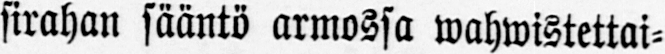sirahan sääntö armossa wahwistettai-
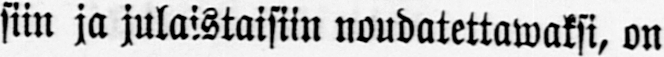siin ja julaistaisiin noudatettawaksi, on
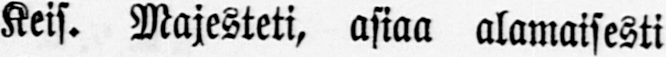Keis. Majesteti, asiaa alamaisesti
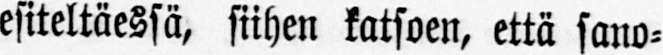esiteltäessä, siihen katsoen, että sano-
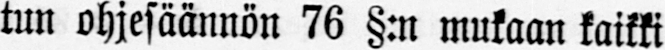tun ohjesäännön 76 §:n mukaan kaikki
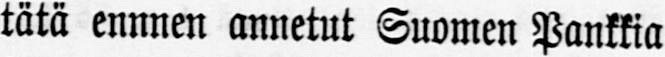tätä ennnen annetut Suomen Pankkia
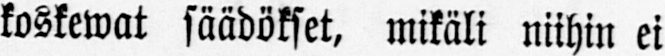koskewat säädökset, mikäli niihin ei
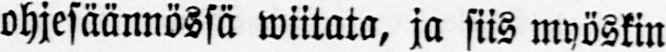ohjesäännössä wiitata, ja siis myöskin
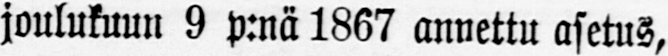joulukuun 9 p:nä 1867 annettu asetus,
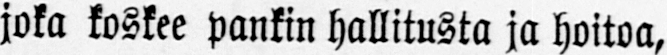joka koskee pankin hallitusta ja hoitoa,
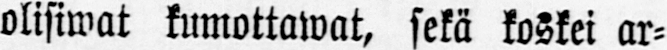olisiwat kumottawat, sekä koskei ar-
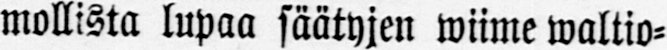mollista lupaa säätyjen viime valtio-
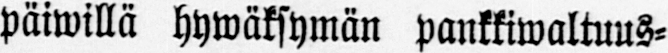päiwillä hywäksymän pankkiwaltuus-
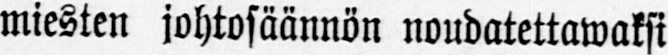miesten johtosäännön noudatettawaksi
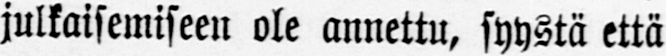julkaisemiseen ole annettu, syystä että
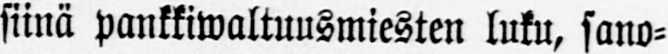siinä pankkiwaltuusmiesten luku, sano-
